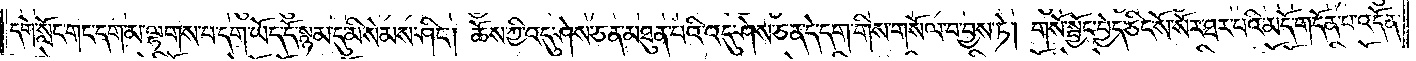དགེ་སློང་གང་དག་མ་ལྷགས་པ་དག་ཡོད་དོ་སྙམ་དུ་མི་སེམས་ཤིང༌། ཆོས་ཀྱི་འདུ་ཤེས་ཅན་མཐུན་པའི་འདུ་ཤེས་ཅན་དེ་དག་གིས་གསོལ་བ་བྱས་ཏེ། གསོ་སྦྱོང་བྱེད་ཅིང་སོ་སོར་ཐར་བའི་མདོ་གདོན་པ་འདོན་
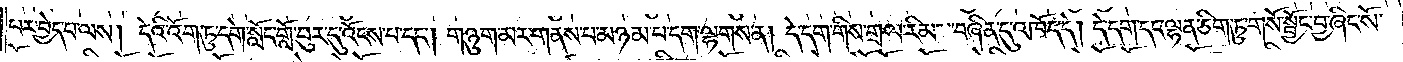པར་བྱེད་པ་ལས། དེའི་འོག་ཏུ་དགེ་སློང་གློ་བུར་དུ་འོངས་པ་དང༌། གཉུག་མར་གནས་པ་མཉམ་པ་དག་ལྷགས་ན། དེ་དག་གིས་གྲལ་རིམས་བཞིན་དུ་འཁོད་དེ། དེ་དག་དང་ལྷན་ཅིག་ཏུ་གསོ་སྦྱོང་བྱ་ཞིང་སོ་
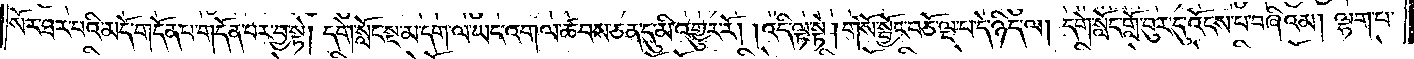སོར་ཐར་པའི་མདོ་གདོན་པ་གདོན་པར་བྱ་སྟེ། དགེ་སློང་སྔ་མ་དག་ལ་ཡང་འགལ་ཚབས་ཅན་དུ་མི་འགྱུར་རོ། །འདི་ལྟ་སྟེ། གསོ་སྦྱོང་བཅོ་ལྔ་པ་དེ་ཉིད་ལ། དགེ་སློང་གློ་བུར་དུ་འོངས་པ་བཞིའམ། ལྷག་པ་
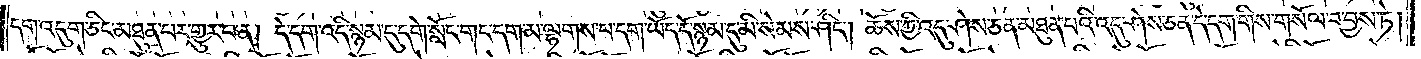དག་འདུག་ཅིང་མཐུན་པར་གྱུར་པ་ན། དེ་དག་འདི་སྙམ་དུ་དགེ་སློང་གང་དག་མ་ལྷགས་པ་དག་ཡོད་དོ་སྙམ་དུ་མི་སེམས་ཤིང༌། ཆོས་ཀྱི་འདུ་ཤེས་ཅན་མཐུན་པའི་འདུ་ཤེས་ཅན་དེ་དག་གིས་གསོལ་བ་བྱས་ཏེ།
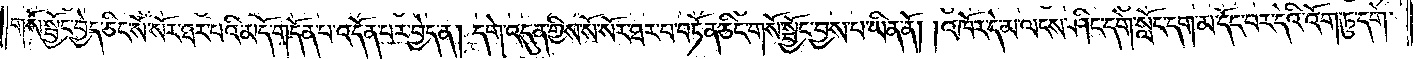གསོ་སྦྱོང་བྱེད་ཅིང་སོ་སོར་ཐར་པའི་མདོ་གདོན་པ་འདོན་པར་བྱེད་ན། དགེ་འདུན་གྱིས་སོ་སོར་ཐར་པ་བཏོན་ཅིང་གསོ་སྦྱོང་བྱས་པ་ཡིན་ནོ། །འཁོར་དེ་མ་ལངས་ཤིང་དགེ་སློང་དག་མ་དོང་བར་དེའི་འོག་ཏུ་དགེ་
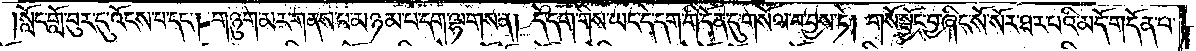།སློང་གློ་བུར་དུ་འོངས་པ་དང༌། གཉུག་མར་གནས་པ་མཉམ་པ་དག་ལྷགས་ན། དེ་དག་གིས་ཡང་དེ་དག་གི་དོན་དུ་གསོལ་བ་བྱས་ཏེ། གསོ་སྦྱོང་བྱ་ཞིང་སོ་སོར་ཐར་པའི་མདོ་གདོན་པ་
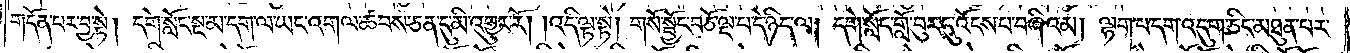གདོན་པར་བྱ་སྟེ། དགེ་སློང་སྔ་མ་དག་ལ་ཡང་འགལ་ཚབས་ཅན་དུ་མི་འགྱུར་རོ། །འདི་ལྟ་སྟེ། གསོ་སྦྱོང་བཅོ་ལྔ་པ་དེ་ཉིད་ལ། དགེ་སློང་གློ་བུར་དུ་འོངས་པ་བཞིའམ། ལྷག་པ་དག་འདུག་ཅིང་མཐུན་པར་
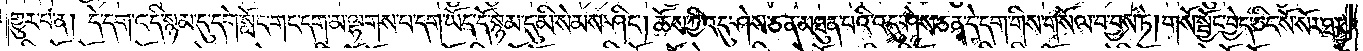གྱུར་པ་ན། དེ་དག་འདི་སྙམ་དུ་དགེ་སློང་གང་དག་མ་ལྷགས་པ་དག་ཡོད་དོ་སྙམ་དུ་མི་སེམས་ཤིང༌། ཆོས་ཀྱི་འདུ་ཤེས་ཅན་མཐུན་པའི་འདུ་ཤེས་ཅན་དེ་དག་གིས་གསོལ་བ་བྱས་ཏེ། གསོ་སྦྱོང་བྱེད་ཅིང་སོ་སོར་ཐར་
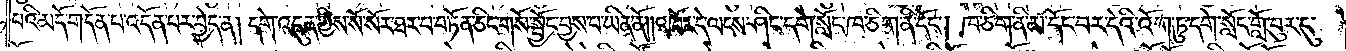པའི་མདོ་གདོན་པ་འདོན་པར་བྱེད་ན། དགེ་འདུན་གྱིས་སོ་སོར་ཐར་པ་བཏོན་ཅིང་གསོ་སྦྱོང་བྱས་པ་ཡིན་ནོ། །འཁོར་དེ་ལངས་ཤིང་དགེ་སློང་ཁ་ཅིག་ནི་དོང༌། ཁ་ཅིག་ནི་མ་དོང་བར་དེའི་འོག་ཏུ་དགེ་སློང་གློ་བུར་དུ་
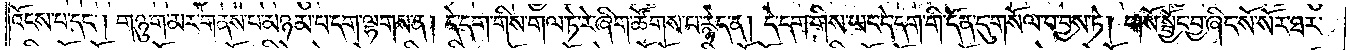འོངས་པ་དང༌། གཉུག་མར་གནས་པ་མཉམ་པ་དག་ལྷགས་ན། དེ་དག་གིས་གལ་ཏེ་རེ་ཞིག་ཚོགས་པ་རྙེད་ན། དེ་དག་གིས་ཡང་དེ་དག་གི་དོན་དུ་གསོལ་བ་བྱས་ཏེ། གསོ་སྦྱོང་བྱ་ཞིང་སོ་སོར་ཐར་
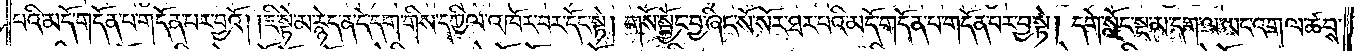པའི་མདོ་གདོན་པ་གདོན་པར་བྱའོ། །ཇི་སྟེ་མ་རྙེད་ན་དེ་དག་གིས་དཀྱིལ་འཁོར་བར་དོང་སྟེ། གསོ་སྦྱོང་བྱ་ཞིང་སོ་སོར་ཐར་པའི་མདོ་གདོན་པ་གདོན་པར་བྱ་སྟེ། དགེ་སློང་སྔ་མ་དག་ལ་ཡང་འགལ་ཚབས་
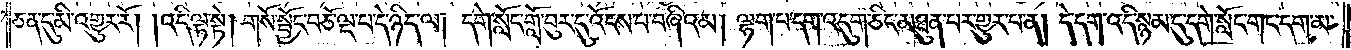ཅན་དུ་མི་འགྱུར་རོ། །འདི་ལྟ་སྟེ། གསོ་སྦྱོང་བཅོ་ལྔ་པ་དེ་ཉིད་ལ། དགེ་སློང་གློ་བུར་དུ་འོངས་པ་བཞིའམ། ལྷག་པ་དག་འདུག་ཅིང་མཐུན་པར་གྱུར་པ་ན། དེ་དག་འདི་སྙམ་དུ་དགེ་སློང་གང་དག་མ་
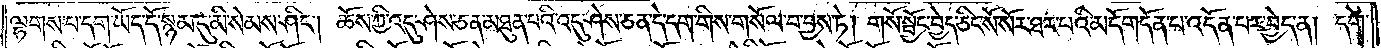ལྷགས་པ་དག་ཡོད་དོ་སྙམ་དུ་མི་སེམས་ཤིང༌། ཆོས་ཀྱི་འདུ་ཤེས་ཅན་མཐུན་པའི་འདུ་ཤེས་ཅན་དེ་དག་གིས་གསོལ་བ་བྱས་ཏེ། གསོ་སྦྱོང་བྱེད་ཅིང་སོ་སོར་ཐར་པའི་མདོག་དོན་པ་འདོན་པར་བྱེད་ན། དགེ་
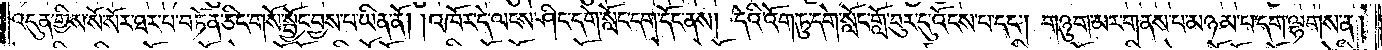འདུན་གྱིས་སོ་སོར་ཐར་པ་བཏོན་ཅིང་གསོ་སྦྱོང་བྱས་པ་ཡིན་ནོ། །འཁོར་དེ་ལངས་ཤིང་དགེ་སློང་དག་དོང་ནས། དེའི་འོག་ཏུ་དགེ་སློང་གློ་བུར་དུ་འོངས་པ་དང༌། གཉུག་མར་གནས་པ་མཉམ་པ་དག་ལྷགས་ན།
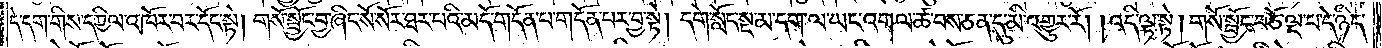དེ་དག་གིས་དཀྱིལ་འཁོར་བར་དོང་སྟེ། གསོ་སྦྱོང་བྱ་ཞིང་སོ་སོར་ཐར་པའི་མདོ་གདོན་པ་གདོན་པར་བྱ་སྟེ། དགེ་སློང་སྔ་མ་དག་ལ་ཡང་འགལ་ཚ་བས་ཅན་དུ་མི་འགྱུར་རོ། །འདི་ལྟ་སྟེ། གསོ་སྦྱོང་བཅོ་ལྔ་པ་དེ་ཉིད་
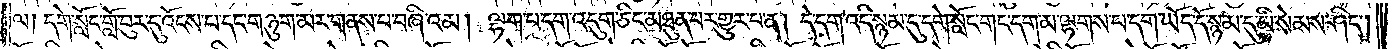ལ། དགེ་སློང་གློ་བུར་དུ་འོངས་པ་དང་གཉུག་མར་གནས་པ་བཞི་འམ། ལྷག་པ་དག་འདུག་ཅིང་མཐུན་པར་གྱུར་པ་ན། དེ་དག་འདི་སྙམ་དུ་དགེ་སློང་གང་དག་མ་ལྷགས་པ་དག་ཡོད་དོ་སྙམ་དུ་མི་སེམས་ཤིང༌།
